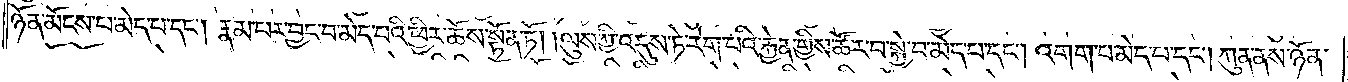ཉོན་མོངས་པ་མེད་པ་དང༌། རྣམ་པར་བྱང་བ་མེད་པའི་ཕྱིར་ཆོས་སྟོན་ཏོ། །ལུས་ཀྱི་འདུས་ཏེ་རེག་པའི་རྐྱེན་གྱིས་ཚོར་བ་སྐྱེ་བ་མེད་པ་དང༌། འགག་པ་མེད་པ་དང༌། ཀུན་ནས་ཉོན་
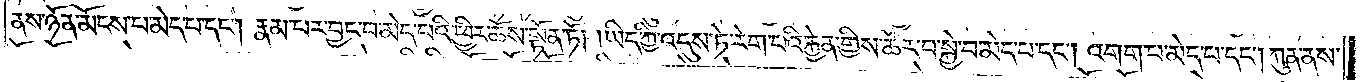ནས་ཉོན་མོངས་པ་མེད་པ་དང༌། རྣམ་པར་བྱང་བ་མེད་པའི་ཕྱིར་ཆོས་སྟོན་ཏོ། །ཡིད་ཀྱི་འདུས་ཏེ་རེག་པའི་རྐྱེན་གྱིས་ཚོར་བ་སྐྱེ་བ་མེད་པ་དང༌། འགག་པ་མེད་པ་དང༌། ཀུན་ནས་
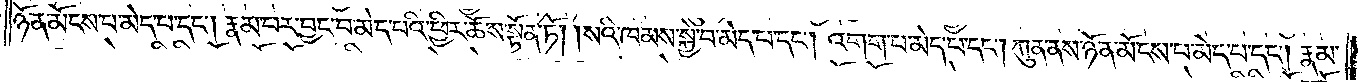ཉོན་མོངས་པ་མེད་པ་དང༌། རྣམ་པར་བྱང་བ་མེད་པའི་ཕྱིར་ཆོས་སྟོན་ཏོ། །སའི་ཁམས་སྐྱེ་བ་མེད་པ་དང༌། འགག་པ་མེད་པ་དང༌། ཀུན་ནས་ཉོན་མོངས་པ་མེད་པ་དང༌། རྣམ་
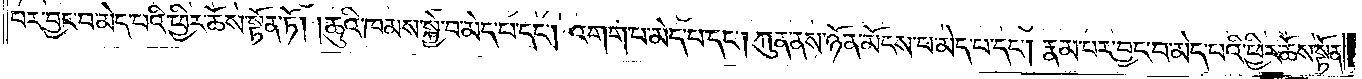པར་བྱང་བ་མེད་པའི་ཕྱིར་ཆོས་སྟོན་ཏོ། །ཆུའི་ཁམས་སྐྱེ་བ་མེད་པ་དང༌། འགག་པ་མེད་པ་དང༌། ཀུན་ནས་ཉོན་མོངས་པ་མེད་པ་དང༌། རྣམ་པར་བྱང་བ་མེད་པའི་ཕྱིར་ཆོས་སྟོན་
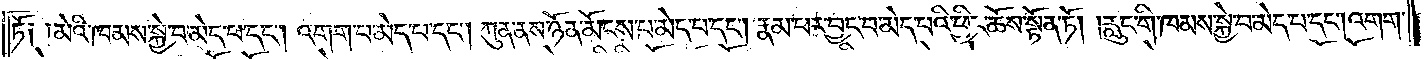ཏོ༑ ༑མེའི་ཁམས་སྐྱེ་བ་མེད་པ་དང༌། འགག་པ་མེད་པ་དང༌། ཀུན་ནས་ཉོན་མོངས་པ་མེད་པ་དང༌། རྣམ་པར་བྱང་བ་མེད་པའི་ཕྱིར་ཆོས་སྟོན་ཏོ། །རླུང་གི་ཁམས་སྐྱེ་བ་མེད་པ་དང༌། འགག་
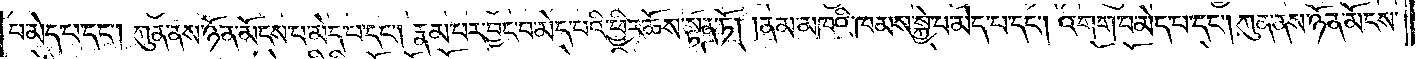པ་མེད་པ་དང༌། ཀུན་ནས་ཉོན་མོངས་པ་མེད་པ་དང༌། རྣམ་པར་བྱང་བ་མེད་པའི་ཕྱིར་ཆོས་སྟོན་ཏོ། །ནམ་མཁའི་ཁམས་སྐྱེ་པ་མེད་པ་དང༌། འགག་པ་མེད་པ་དང༌། ཀུན་ནས་ཉོན་མོངས་
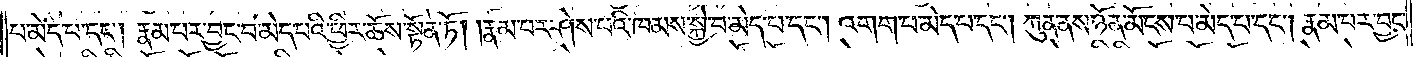པ་མེད་པ་དང༌། རྣམ་པར་བྱང་བ་མེད་པའི་ཕྱིར་ཆོས་སྟོན་ཏོ། །རྣམ་པར་ཤེས་པའི་ཁམས་སྐྱེ་བ་མེད་པ་དང༌། འགག་པ་མེད་པ་དང༌། ཀུན་ནས་ཉོན་མོངས་པ་མེད་པ་དང༌། རྣམ་པར་བྱང་
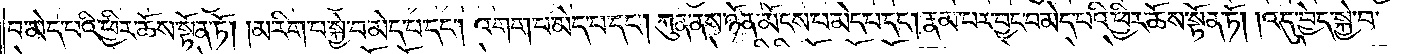བ་མེད་པའི་ཕྱིར་ཆོས་སྟོན་ཏོ། །མ་རིག་པ་སྐྱེ་བ་མེད་པ་དང༌། འགག་པ་མེད་པ་དང༌། ཀུན་ནས་ཉོན་མོངས་པ་མེད་པ་དང༌། རྣམ་པར་བྱང་བ་མེད་པའི་ཕྱིར་ཆོས་སྟོན་ཏོ། །འདུ་བྱེད་སྐྱེ་བ་
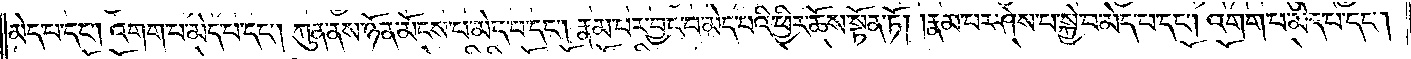མེད་པ་དང༌། འགག་པ་མེད་པ་དང༌། ཀུན་ནས་ཉོན་མོངས་པ་མེད་པ་དང༌། རྣམ་པར་བྱང་བ་མེད་པའི་ཕྱིར་ཆོས་སྟོན་ཏོ། །རྣམ་པར་ཤེས་པ་སྐྱེ་བ་མེད་པ་དང༌། འགག་པ་མེད་པ་དང༌།
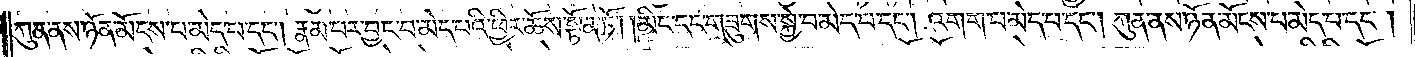ཀུན་ནས་ཉོན་མོངས་པ་མེད་པ་དང༌། རྣམ་པར་བྱང་བ་མེད་པའི་ཕྱིར་ཆོས་སྟོན་ཏོ། །མིང་དང་གཟུགས་སྐྱེ་བ་མེད་པ་དང༌། འགག་པ་མེད་པ་དང༌། ཀུན་ནས་ཉོན་མོངས་པ་མེད་པ་དང༌།
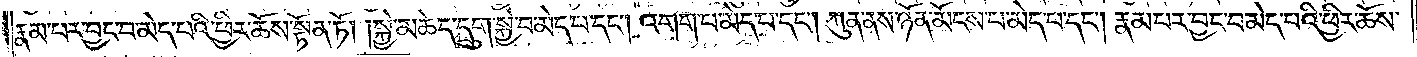རྣམ་པར་བྱང་བ་མེད་པའི་ཕྱིར་ཆོས་སྟོན་ཏོ། །སྐྱེ་མཆེད་དྲུག་སྐྱེ་བ་མེད་པ་དང༌། འགག་པ་མེད་པ་དང༌། ཀུན་ནས་ཉོན་མོངས་པ་མེད་པ་དང༌། རྣམ་པར་བྱང་བ་མེད་པའི་ཕྱིར་ཆོས་
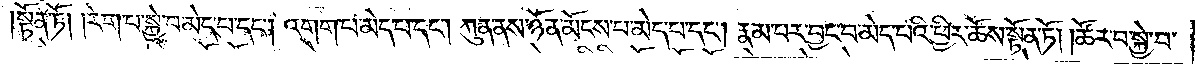སྟོན་ཏོ། །རེག་པ་སྐྱེ་བ་མེད་པ་དང༌། འགག་པ་མེད་པ་དང༌། ཀུན་ནས་ཉོན་མོངས་པ་མེད་པ་དང༌། རྣམ་པར་བྱང་བ་མེད་པའི་ཕྱིར་ཆོས་སྟོན་ཏོ། །ཚོར་བ་སྐྱེ་བ་
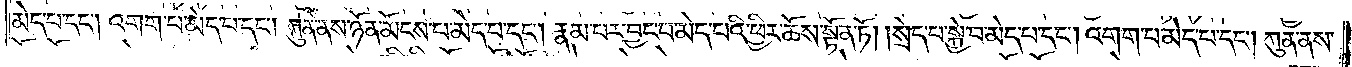མེད་པ་དང༌། འགག་པ་མེད་པ་དང༌། ཀུན་ནས་ཉོན་མོངས་པ་མེད་པ་དང༌། རྣམ་པར་བྱང་བ་མེད་པའི་ཕྱིར་ཆོས་སྟོན་ཏོ། །སྲེད་པ་སྐྱེ་བ་མེད་པ་དང༌། འགག་པ་མེད་པ་དང༌། ཀུན་ནས་
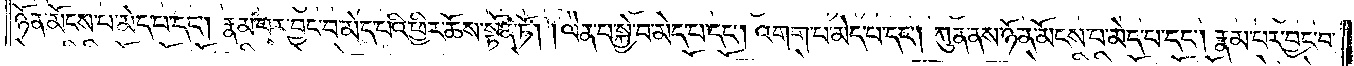ཉོན་མོངས་པ་མེད་པ་དང༌། རྣམ་པར་བྱང་བ་མེད་པའི་ཕྱིར་ཆོས་སྟོན་ཏོ། །ལེན་པ་སྐྱེ་བ་མེད་པ་དང༌། འགག་པ་མེད་པ་དང༌། ཀུན་ནས་ཉོན་མོངས་པ་མེད་པ་དང༌། རྣམ་པར་བྱང་བ་
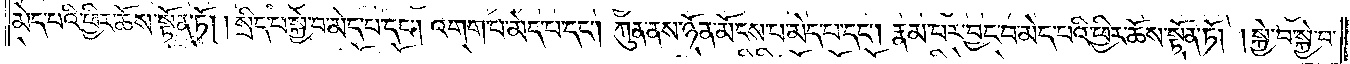མེད་པའི་ཕྱིར་ཆོས་སྟོན་ཏོ། །སྲིད་པ་སྐྱེ་བ་མེད་པ་དང༌། འགག་པ་མེད་པ་དང༌། ཀུན་ནས་ཉོན་མོངས་པ་མེད་པ་དང༌། རྣམ་པར་བྱང་བ་མེད་པའི་ཕྱིར་ཆོས་སྟོན་ཏོ། །སྐྱེ་བ་སྐྱེ་བ་
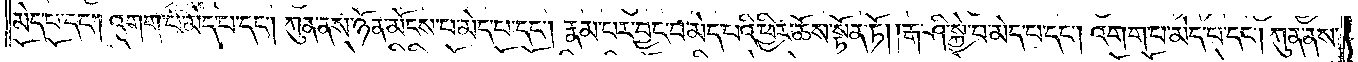མེད་པ་དང༌། འགག་པ་མེད་པ་དང༌། ཀུན་ནས་ཉོན་མོངས་པ་མེད་པ་དང༌། རྣམ་པར་བྱང་བ་མེད་པའི་ཕྱིར་ཆོས་སྟོན་ཏོ། །རྒ་ཤི་སྐྱེ་བ་མེད་པ་དང༌། འགག་པ་མེད་པ་དང༌། ཀུན་ནས་
